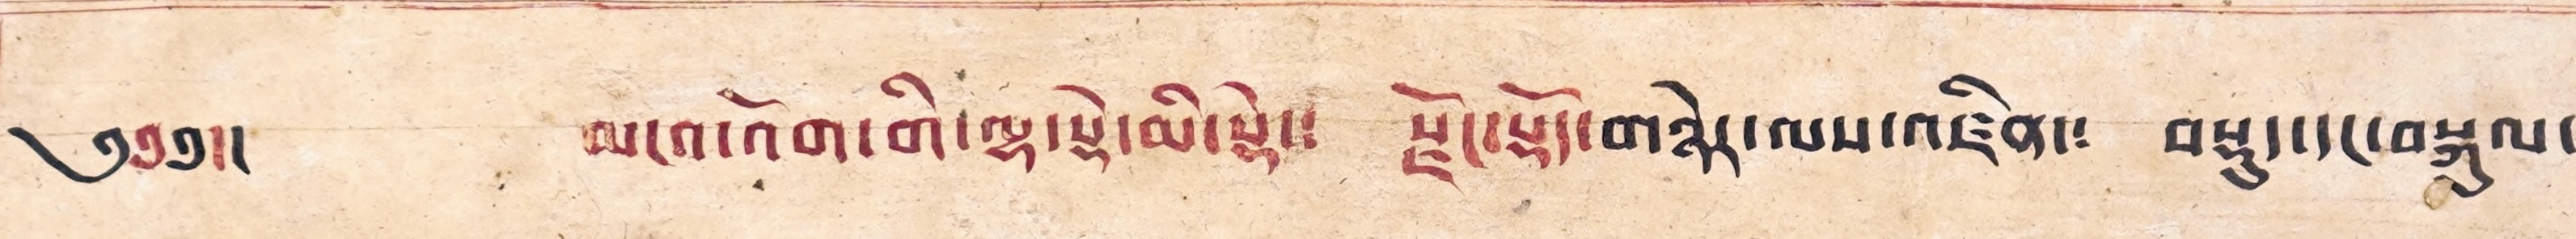༄༅༅།། མངའ་འོག་གི་ལྷ་སྡེ་མི་སྡེ། རྫོང་སྟོད་གཉེར་ལས་འཛིན་༴ བསྡུད་དང་བསྐུལ་
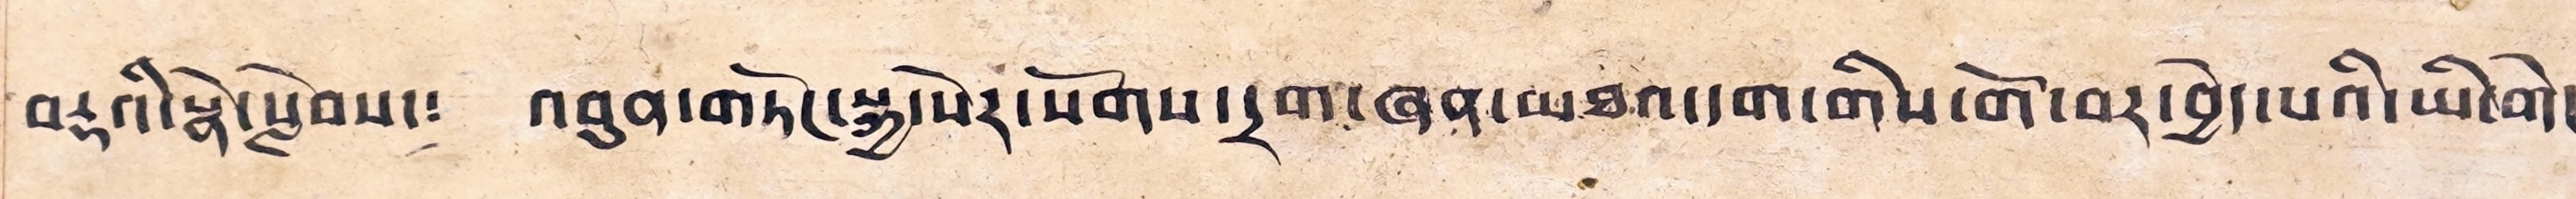བརྡའི་སྣེ་སླེབས་༴ འབུན་གཏོང་སྐྱ་སེར་སོགས་དྲག་ཞན་མཐའ་དག་གིས་གོ་བར་བྱེད་པའི་ཡི་གེ།
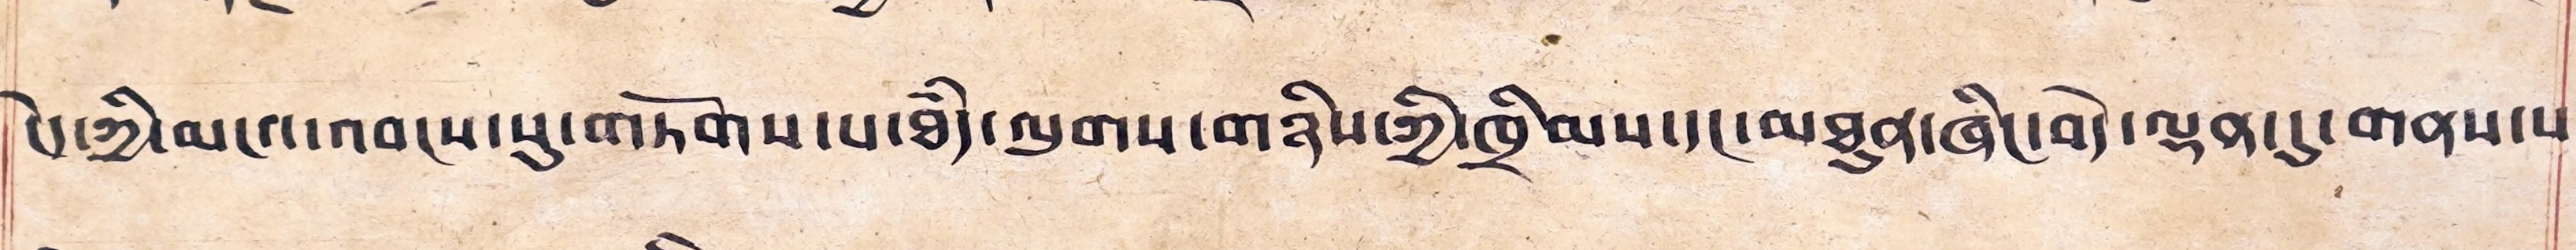ངེ་ཀྱི་མངའ་འབངས་སུ་གཏོགས་པ་ཐཾད་ལུགས་གཉིས་ཀྱི་ཁྲིམས་དང་མཐུན་ཞིང་བདེ་ལྡན་དུ་གནས་པ༴
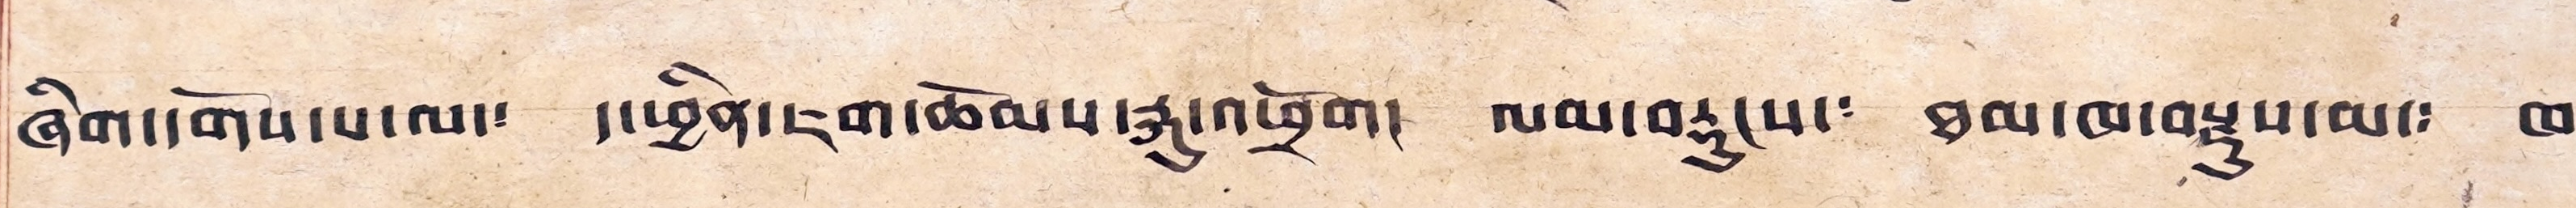ཞིག་དགོས་པ་ལ་༴ ད་ཕྱིན་ཇག་ཆོམས་རྐུ་འཕྲོག། ལམ་བརྡུངས་༴ ཐམ་ཁ་བསྡུས་མ་༴ ཁ་
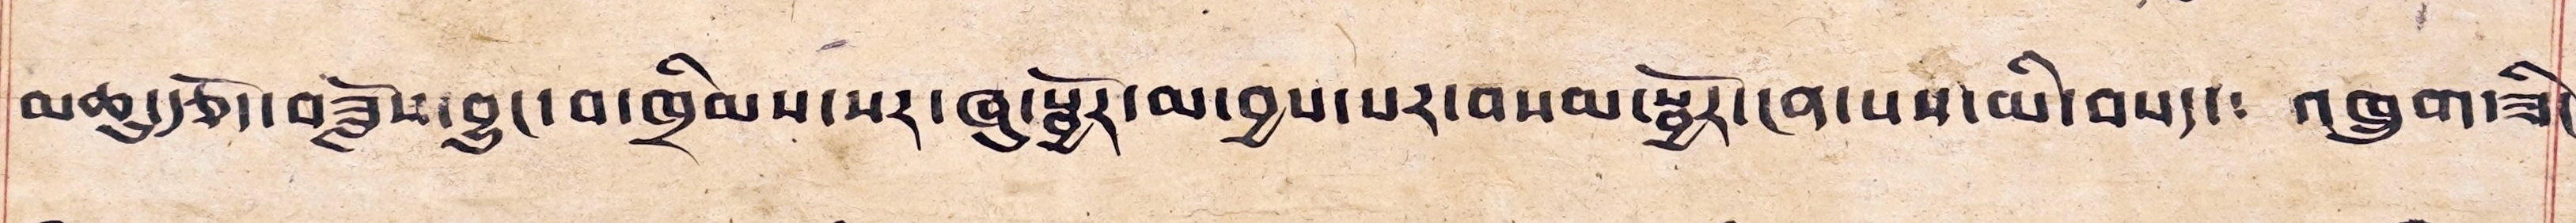མཆུ་རྩོད་བཟློས་བྱུང་བ་ཁྲིམས་སར་ཞུ་སྦྱོར་མ་བྱས་པར་བསམ་སྦྱོར་ངན་པས་མི་བསད་༴ འཁྲུག་ཟི་༴
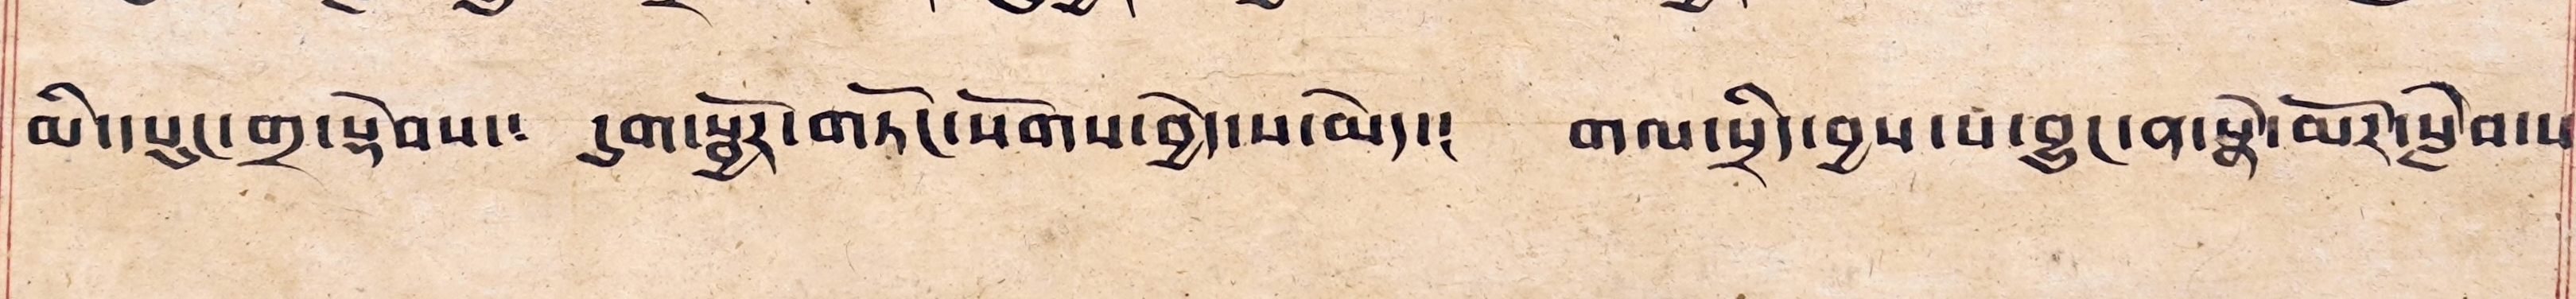མི་དཔུང་གྲ་སྡེབས་༴ དུག་སྦྱོར་གཏོང་སོགས་བྱེད་པ་མེད་༴ གལ་སྲིད་བྱས་པ་བྱུང་ན་སྣེ་མོར་སླེབ་ས༴
